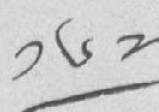༡༦༢
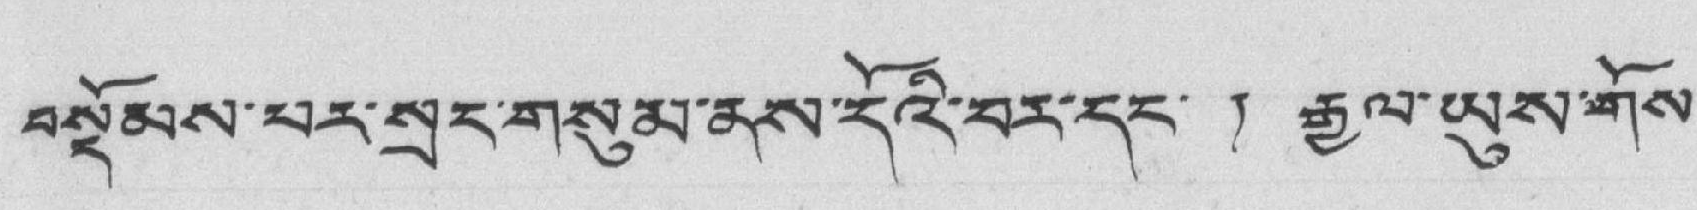བསྡོམས་པར་སྲང་གསུམ་ནས་དོའི་བར་དང་ ། རྒྱལ་ཡུས་གོས་
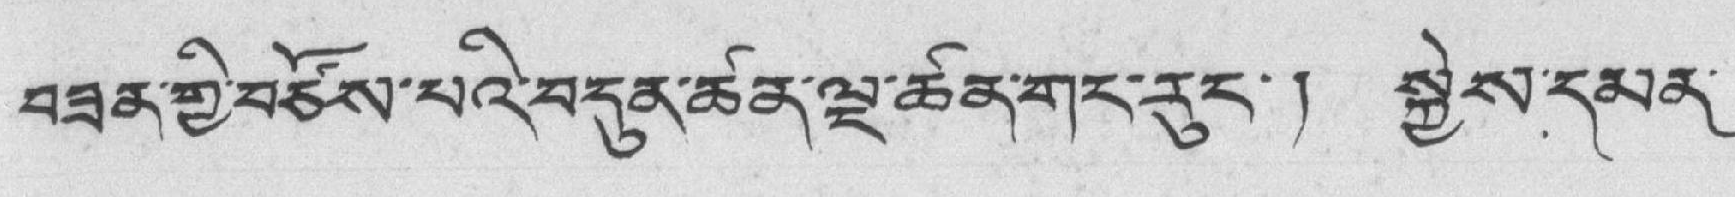བཟན་གྱི་བཙོས་པའི་བདུན་ཚན་ལྔ་ཚན་གང་རུང་། སྐྱེས་དམན་
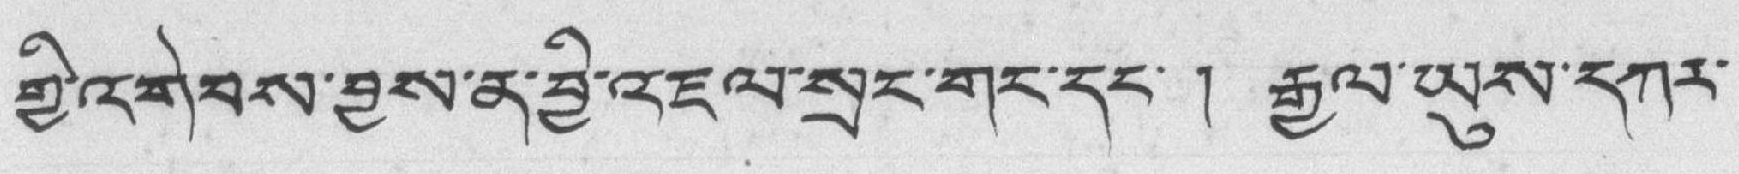གྱི་འགེབས་བྱས་ན་བྱི་འཇལ་སྲང་གང་དང་། རྒྱལ་ཡུས་དཀར་
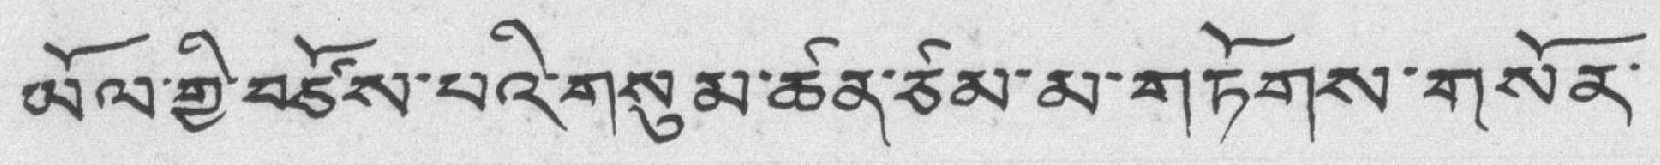ཡོལ་གྱི་བཙོས་པའི་གསུམ་ཚན་ཙམ་མ་གཏོགས་གསོན་
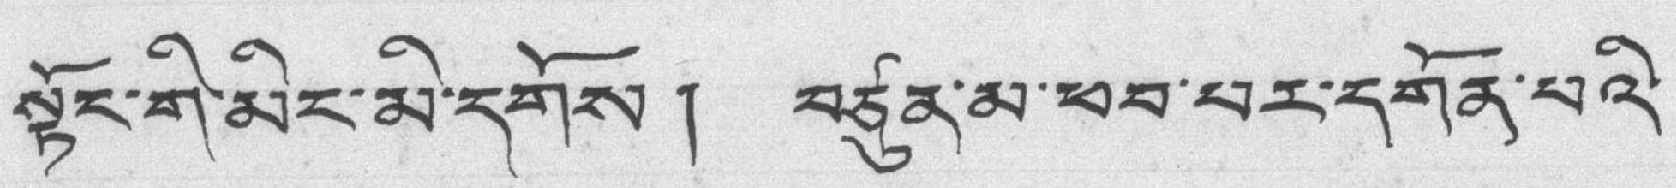སྟོང་གི་མིང་མི་དགོས། བཙུན་མ་ཕབ་པར་དགོན་པའི་
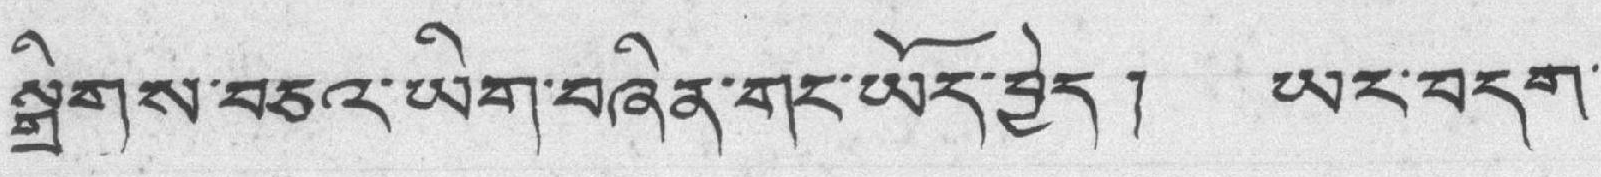སྒྲིགས་བཅའ་ཡིག་བཞིན་གང་ཡོད་བྱེད། ཡང་བདག་
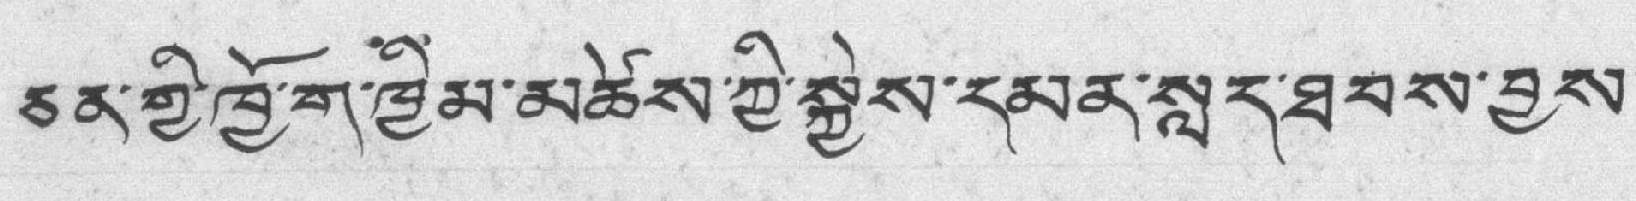ཅན་གྱི་ཁྱོ་ག་ཁྱིམ་མཚེས་ཀྱི་སྐྱེས་དམན་སླད་ཐབས་བྱས་
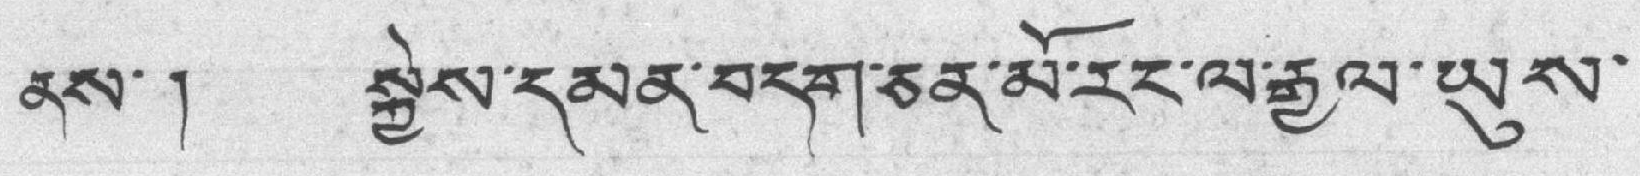ནས་། སྐྱེས་དམན་བདག་ཅན་མོ་རང་ལ་རྒྱལ་ཡུས་
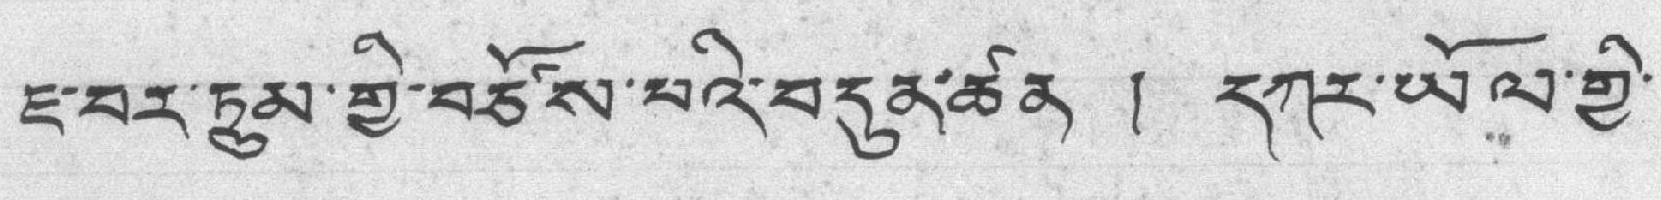ཇ་བར་ཏུམ་གྱི་བཙོས་པའི་བདུན་ཚན ། དཀར་ཡོལ་གྱི་
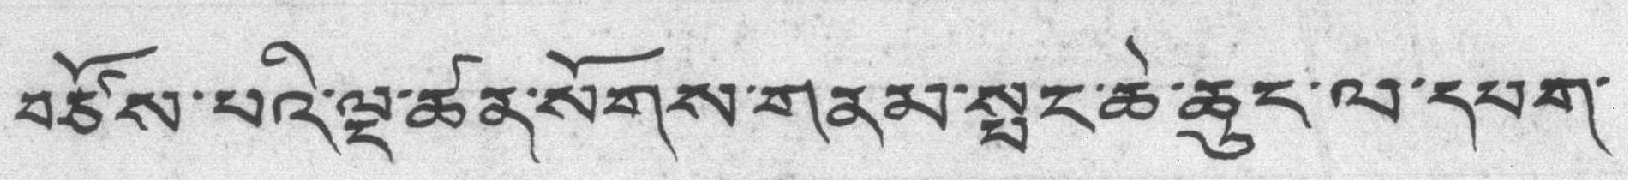བཙོས་པའི་ལྔ་ཚན་སོགས་གནམ་སྤང་ཆེ་ཆུང་ལ་དཔག་
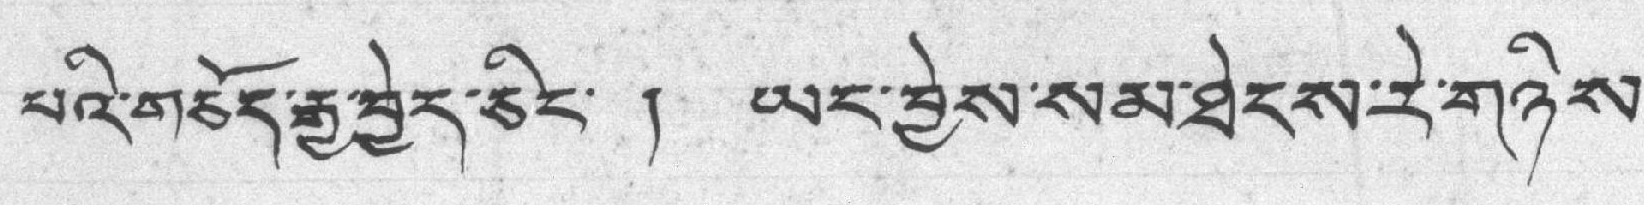པའི་གཅོད་རྒྱ་བྱེད་ཅིང་ ། ཡང་བྱེས་སམ་ཐེངས་རེ་གཉིས་
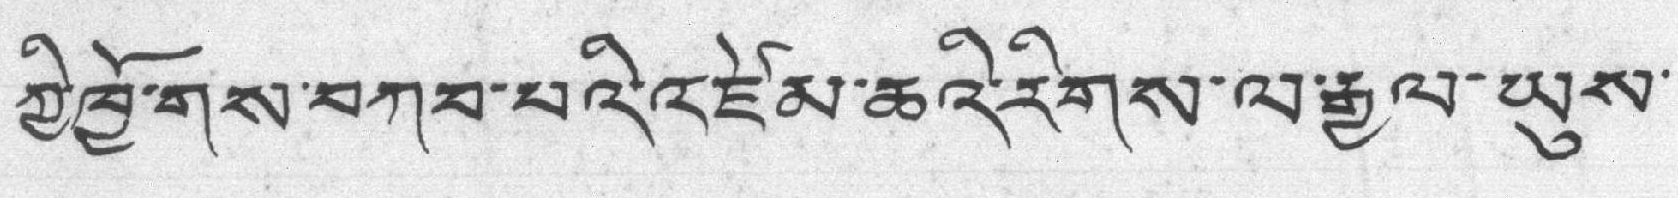ཀྱི་ཁྱོ་གས་བཀབ་པའི་འཛེམ་ཆའི་རིགས་ལ་རྒྱལ་ཡུས་
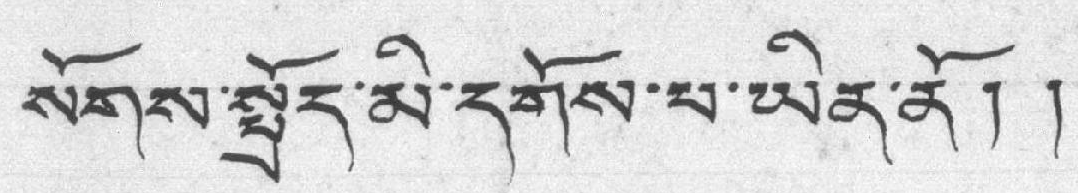སོགས་སྤྲོད་མི་དགོས་པ་ཡིན་ནོ། །
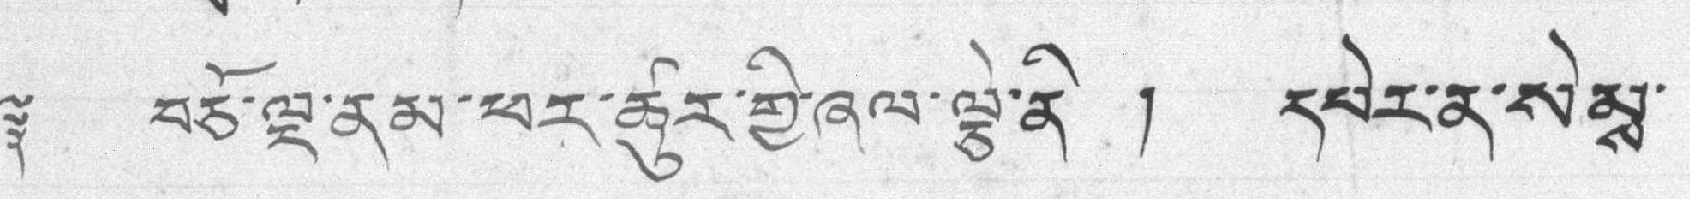༈ བཅོ་ལྔ་ནམ་ཕར་ཚུར་གྱི་ཞལ་ལྕེ་ནི ། དཔེར་ན་སེམས་
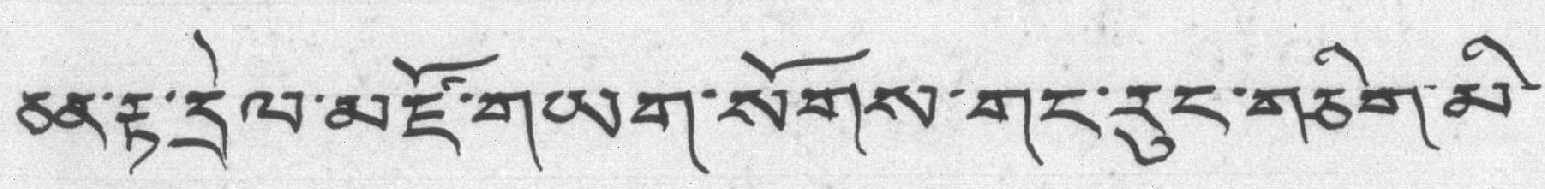ཅན་རྟ་དྲེལ་མཛོ་གཡག་སོགས་གང་རུང་གཅིག་མི་
